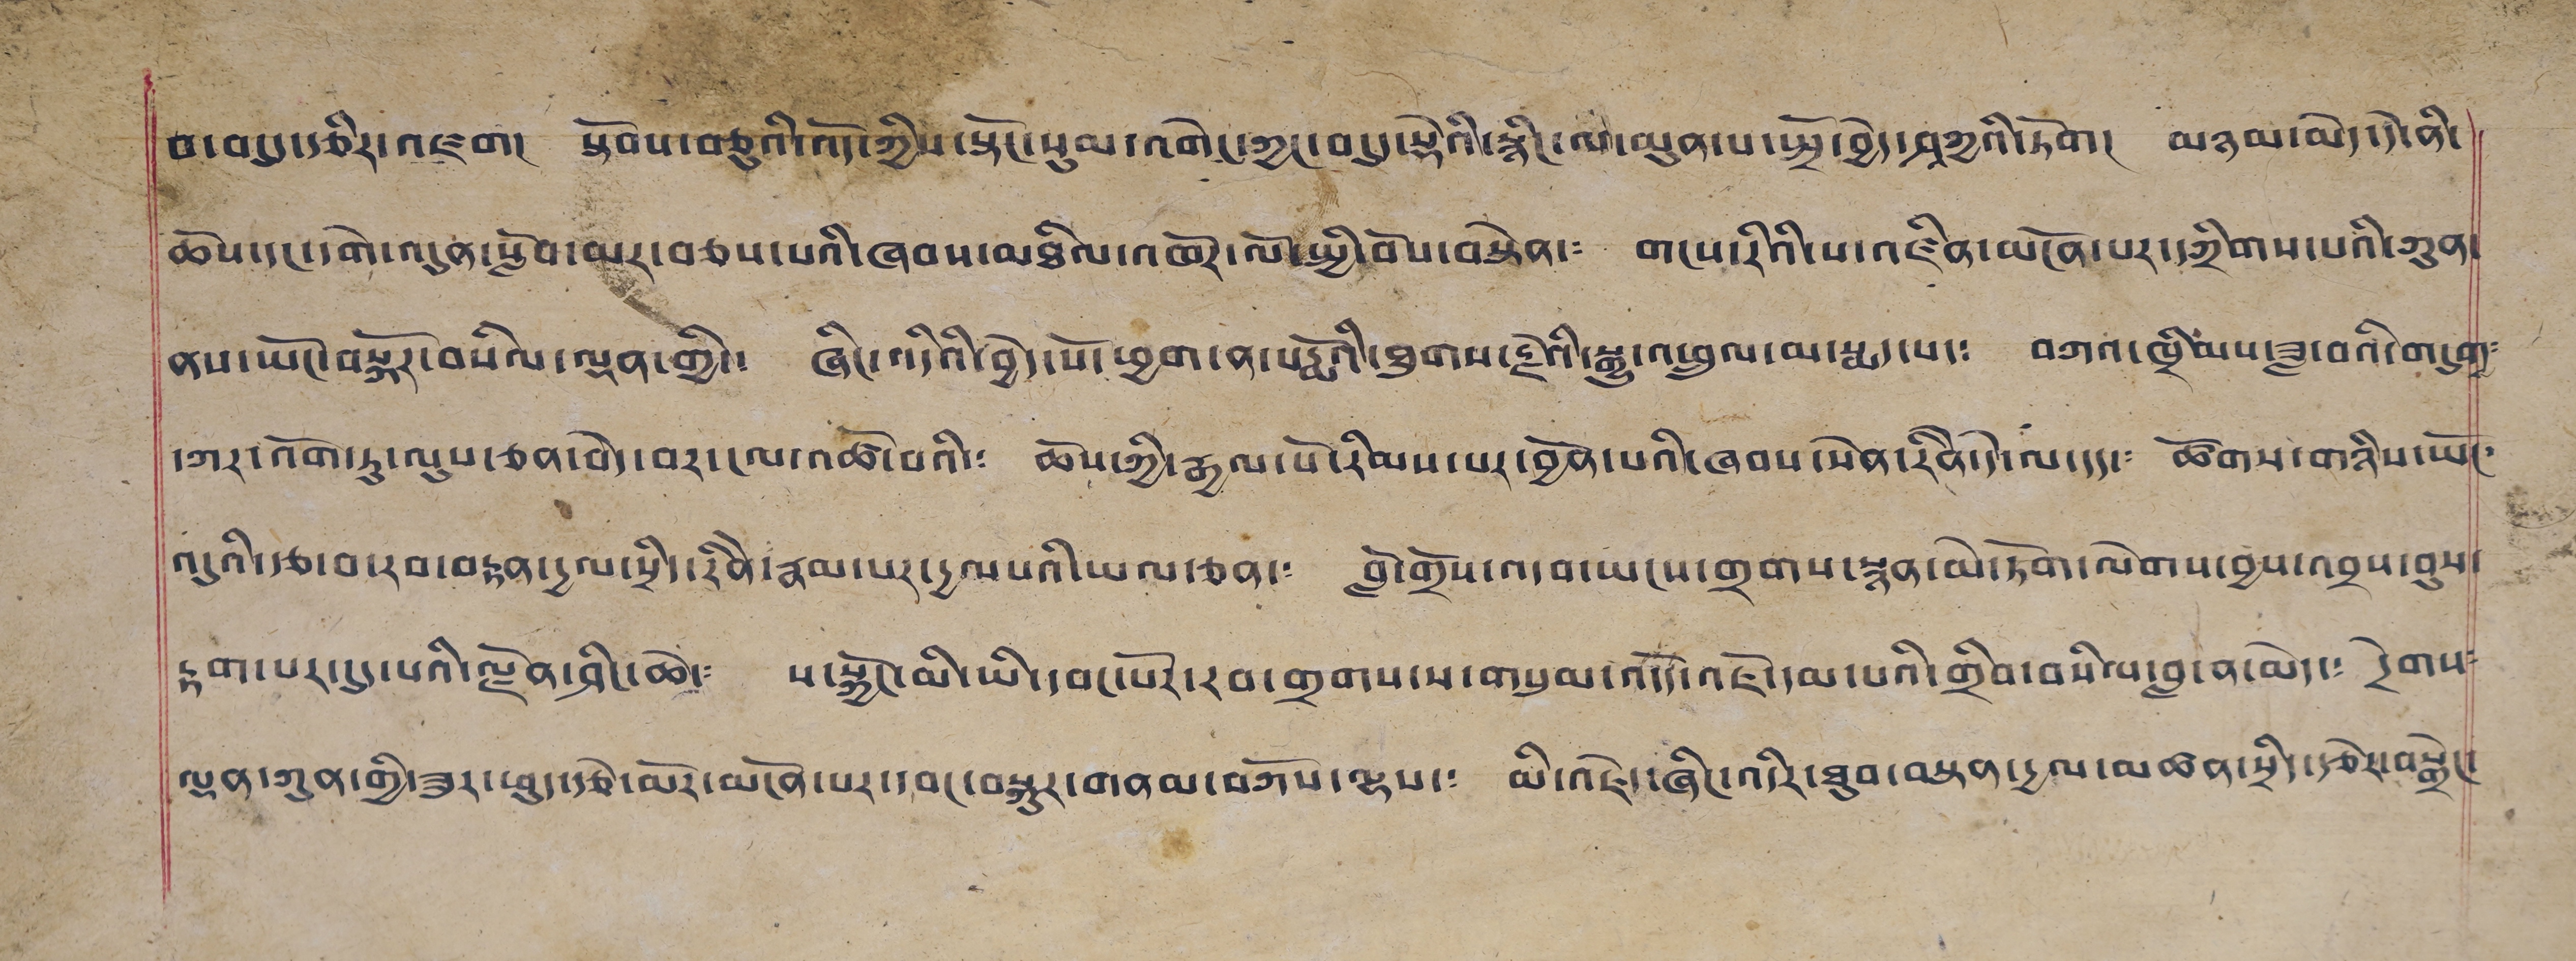བ་བདུད་རྩིར་འཛག། སྟོབས་བཅུའི་འོད་ཀྱིས་སྟོང་སུམ་འགེང་ཀྱང་བསུ་སྡེའི་སྙིང་ལ་མུན་པ་སྤྲོ་བྱེད་ཤཱཀྱའི་ཏོག། མཉམ་མེད་དེ་ནི་
ཆོས་དང་དགེ་འདུན་སློབ་མར་བཅས་པའི་ཞབས་མཐིལ་འཁོར་ལོ་སྤྱི་བོས་བསྟེན་༴ གངས་རིའི་ས་འཛིན་མངོན་པར་དཀྲིགས་པའི་ཀུན་
ནས་ཡོང་བསྐོར་བསིལ་ལྡན་གྱི་༴ ཞིང་འདིའི་བྱེད་པོ་ཕྱག་ན་པདྨོའི་ཐུགས་རྗེའི་སྒྱུ་འཕྲུལ་མ་སྨད་པ་༴ བཀའ་ཁྲིམས་ཟླ་བའི་གདུག༴
དཀར་འོག་ཏུ་ལུས་ཅན་བེད་བར་ངལ་འཚོ་བའི་༴ ཆོས་ཀྱི་རྒྱལ་པེ་རིམས་པར་བྱོན་པའི་ཞབས་སེན་རིནི་དེ་ལ་དད་༴ ཚོགས་གཉིས་ཡོང༴
འདུའི་རྩ་བ་རབ་བརྟན་དྱལ་སྲིད་རིནི་རྣམ་པར་དྱལ་པའི་ཡལ་ཅན་༴ བློ་གྲོས་འདབ་ཡངས་གྲགས་སྙན་མེ་ཏོག་ལེགས་བྱས་འབྲས་བུས་
རྟག་པར་དུད་པའི་ལྗོན་ཤིང་ཆེ་༴ ས་སྐྱོང་མི་ཡི་དབང་པོར་རབ་གྲགས་ས་གསུམ་འདོད་འཇོ་དམ་པའི་གྲིབ་བསིལ་བླ་ན་མེད་༴ དྲེགས༴
ལྡན་ཀུན་གྱི་ཟུར་ཕུ་རྩེ་མོར་མངོན་པར་དབང་བསྐུར་གནམ་བཀོས་ལྷས་༴ མི་འཇེད་ཞིང་འདིར་ཐུབ་བསྟན་དྱལ་མཚན་སྲིད་རྩེར་བསྒྲེང་།
